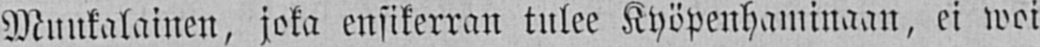Muukalainen, joka ensikerran tulee Kyöpenhaminaan, ei woi
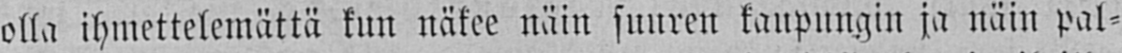olla ihmettelemättä kun näkee näin suuren kaupungin ja näin pal-
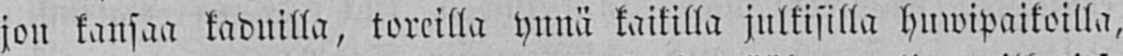jon kansaa kaduilla, toreilla ynnä kaikilla julkisilla huwipaikoilla,
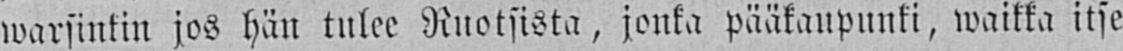warsinkin jos hän tulee Ruotsista, jonka pääkaupunki, waikka itse
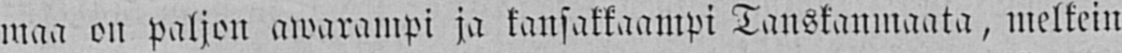maa on paljon awarampi ja kansakkaampi Tanskanmaata, melkein
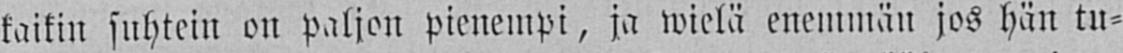kaikin suhtein on paljon pienempi, ja wielä enemmän jos hän tu-
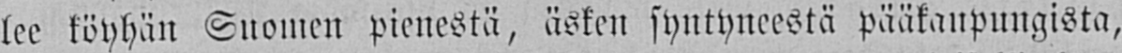lee köyhän Suomen pienestä, äsken syntyneestä pääkaupungista,
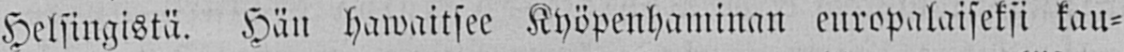Helsingistä. Hän hawaitsee Kyöpenhaminan europalaiseksi kau-
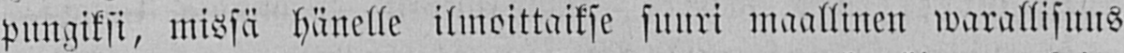pungiksi, missä hänelle ilmoittaikse suuri maallinen warallisuus
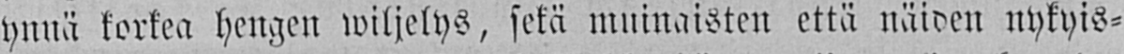ynnä korkea hengen wiljelys, sekä muinaisten että näiden nykyis-
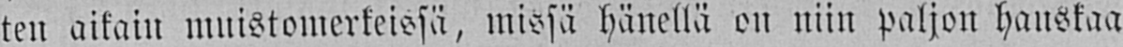ten aikain muistomerkeissä, missä hänellä on niin paljon hauskaa
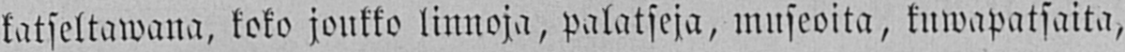katseltawana, koko joukko linnoja, palatseja, museoita, kuwapatsaita,
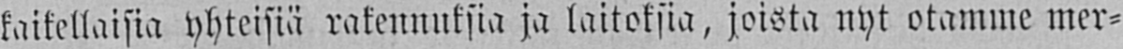kaikellaisia yhteisiä rakennuksia ja laitoksia, joista nyt otamme mer-
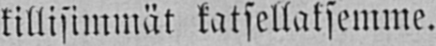killisimmät katsellaksemme.
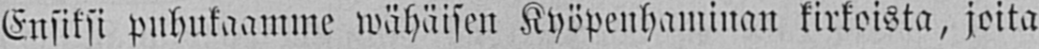Ensiksi puhukaamme wähäisen Kyöpenhaminan kirkoista, joita
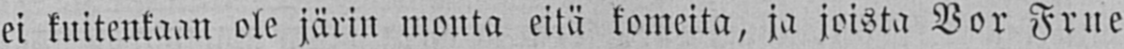ei kuitenkaan ole järin monta eitä komeita, ja joista Bor Frue
